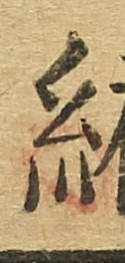編
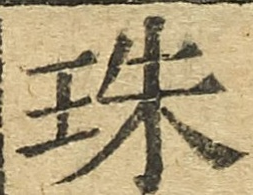珠
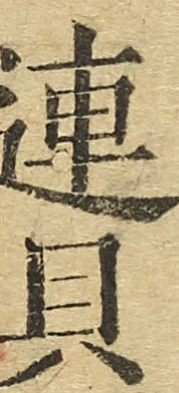連貝
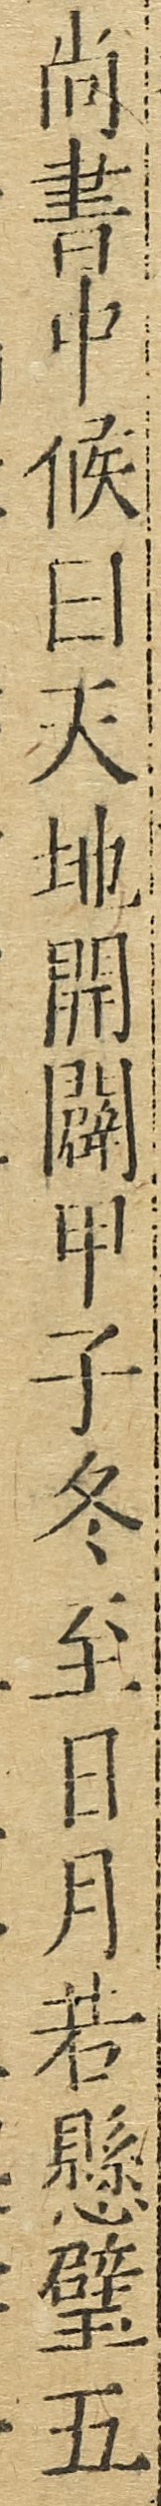尚書中候曰天地開闢甲子冬至日月若懸璧五
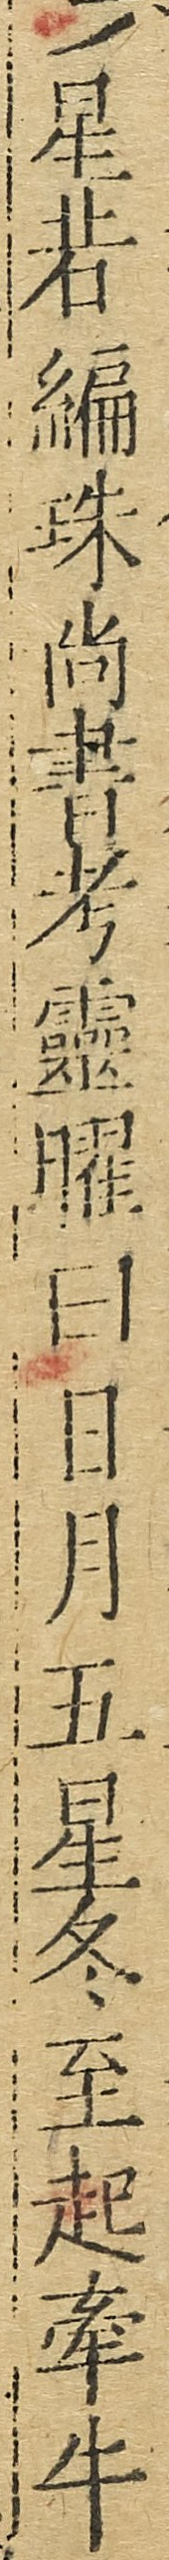星若編珠尚書考靈曜曰日月五星冬至起牽牛
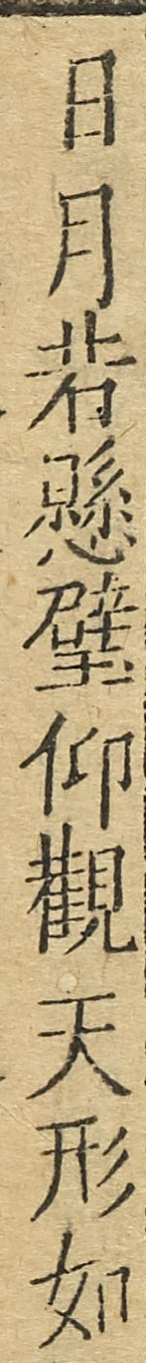日月若懸璧仰觀天形如
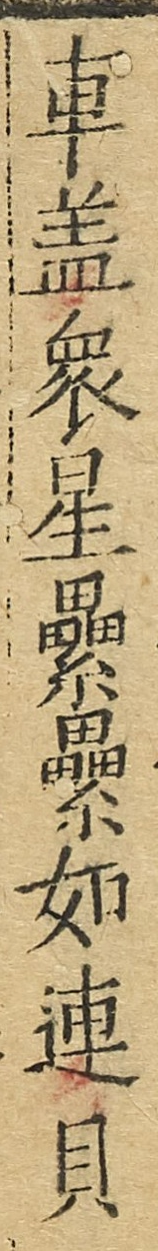車蓋衆星纍纍如連貝
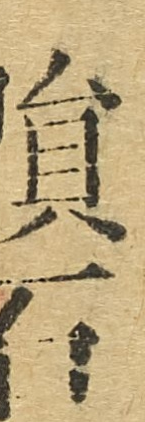隕石
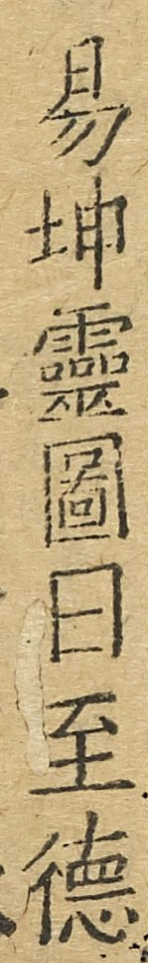易坤靈圖曰至德
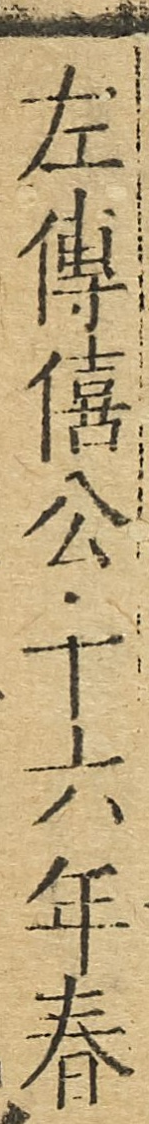左傳僖公十六年春
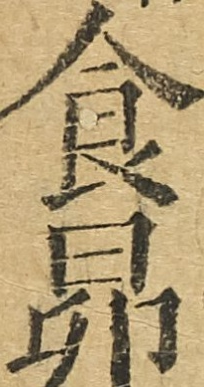食昴
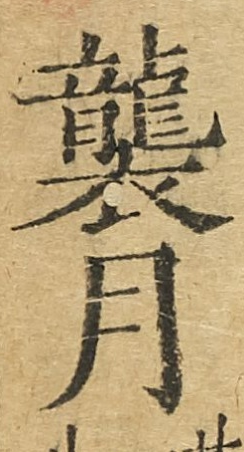襲月
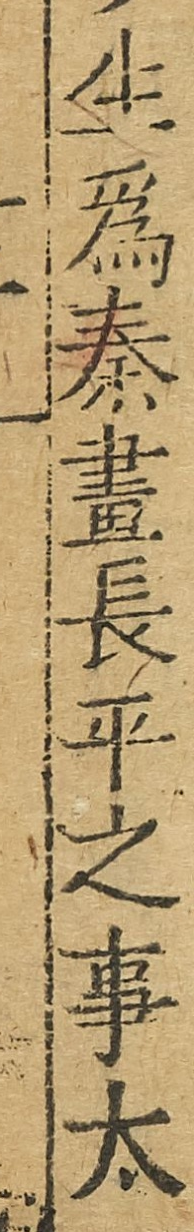生爲秦畫長平之事太
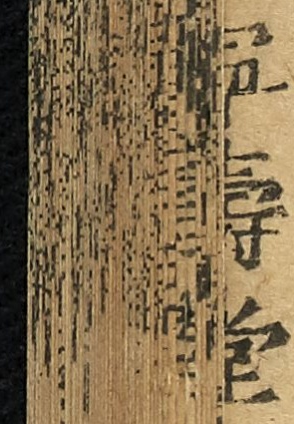寧壽堂
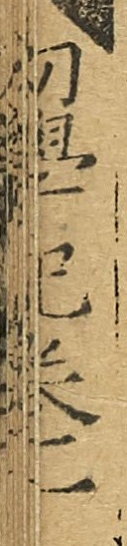初學記卷一
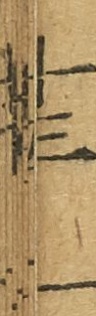十三
